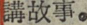講故事。
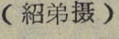（紹弟摄）
